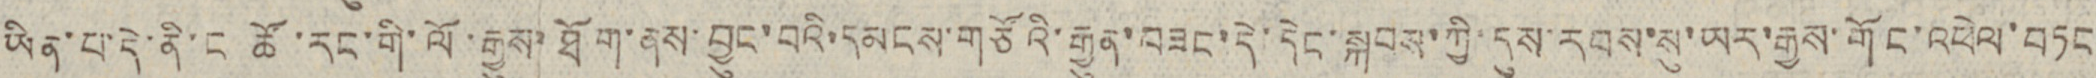ཡིན་པ་དེ་ནི་ང ཚོ་རང་གི་ལོ་རྒྱུས་ཐོག་ནས་བྱུང་བའི་དམངས་གཙོའི་རྒྱུན་བཟང་དེ་དེང་སྐབས་ཀྱི་དུས་རབས་སུ་ཡར་རྒྱས་གོང་འཕེལ་བཏང
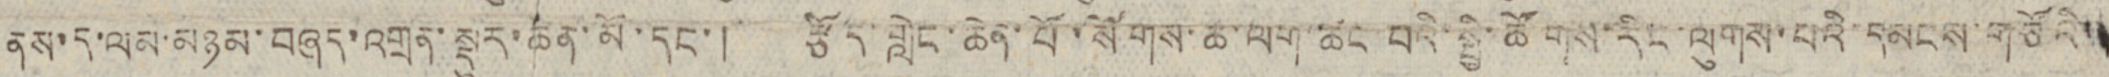ནས་ད་ལམ་མཉམ་བཞད་འགྲན་སྡུར་ཆེན་མོ་དང་། རྩོད་གླེང་ཆེན་པོ་སོགས་ཆ་ལག་ཚང་པའི་ཚོགས་རིང་ལུགས་པའི་དམངས་གཙོའི་་
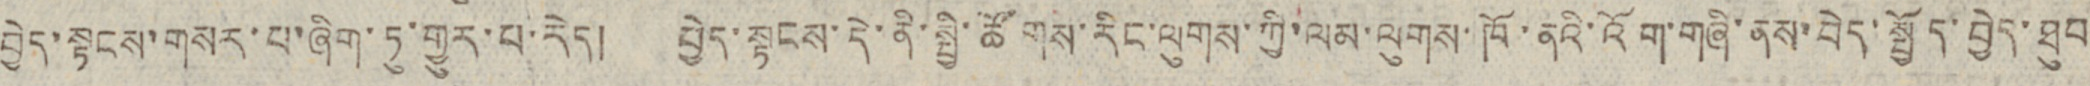བྱེད་སྟངས་གསར་པ་ཞིག་ཏུ་གྱུར་པ་རེད། བྱེད་སྟངས་དེ་ནི་སྤྱི་ཚོགས་རིང་ལུགས་ཀྱི་ལམ་ལུགས་ཁོ་ནའི་འོག་གཞི་ནས་བེད་སྤྱོད་བྱེད་ཐུབ
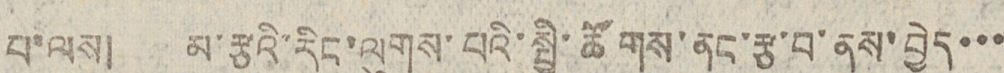པ་ལས། མ་རྩའི་རིང་ལུགས་པའི་སྤྱི་ཚོགས་ནང་རྩ་བ་ནས་བྱེད་་་
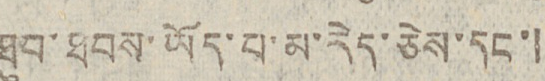ཐུབ་ཐབས་ཡོད་པ་མ་རེད་ཅེས་དང་།
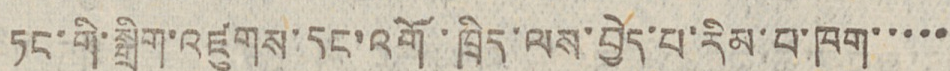ཏང་གི་སྒྲིག་འཛུགས་དང་འགོ་ཁྲིད་ལས་བྱེད་པ་རིམ་པ་ཁག་་་་་
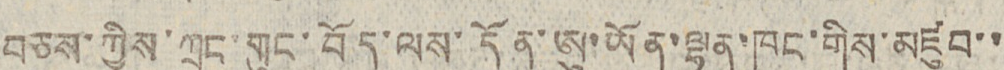བཅས་ཀྱིས་ཀྲུང་གུང་བོད་ལས་དོན་ཨུ་ཡོན་ལྷན་ཁང་གིས་མཛུབ་་
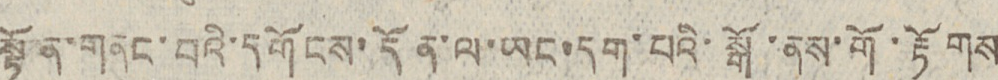སྟོན་གནང་བའི་དགོངས་དོན་ལ་ཡང་དག་པའི་སྒོ་ནས་གོ་རྟོགས
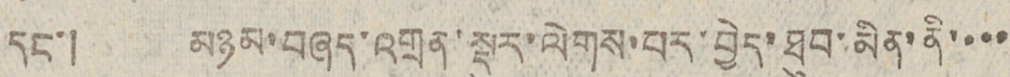དང་། མཉམ་བཞད་འགྲན་སྡུར་ལེགས་པར་བྱེད་ཐུབ་མིན་ནི་་་་
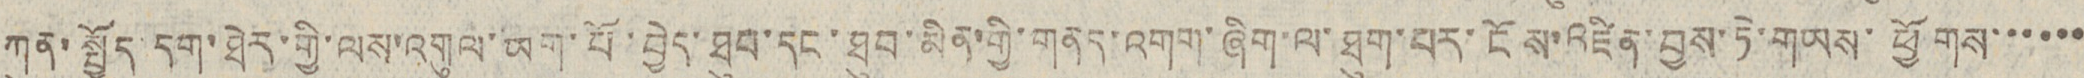ཀུན་སྤྱོད དག་ཐེར་གྱི་ལས་འགུལ་ཡག་པོ་བྱེད་ཐུབ་དང་ཐུབ་མིན་གྱི་གནད་འགག་ཞིག་ལ་ཐུག་པར་ངོས་འཛིན་བྱས་ཏེ་གཡས་ཕྱོགས་་་་་་
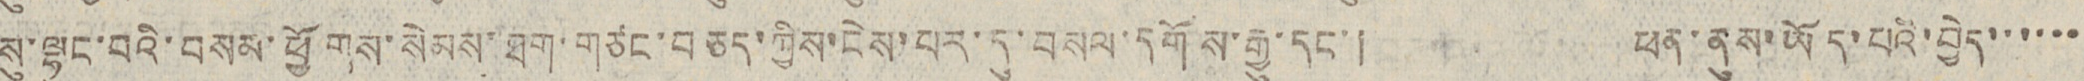སུ་ལྷུང་བའི་བསམ་ཕྱོགས་སེམས་ཐག་གཙང་བཅད་ཀྱིས་ངེས་པར་དུ་བསལ་དགོས་རྒྱུ་དང་། ཕན་ནུས་ཡོད་པའི་བྱེད་་་་་་
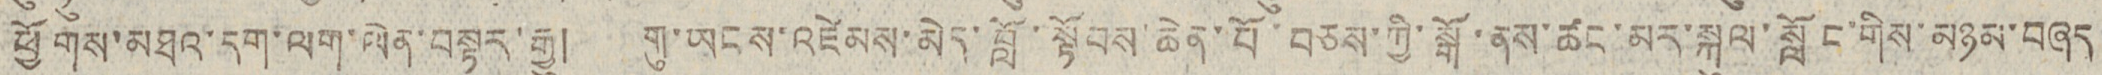ཕྱོགས་མཐའ་དག་ལག་ལེན་བསྟར་རྒྱུ། གུ་ཡངས་འཛེམས་མེད་བློ་སྟོབས་ཆེན་པོ་བཅས་ཀྱི་སྒོ་ནས་ཚང་མར་སྐུལ་སློང་གིས་མཉམ་བཞད
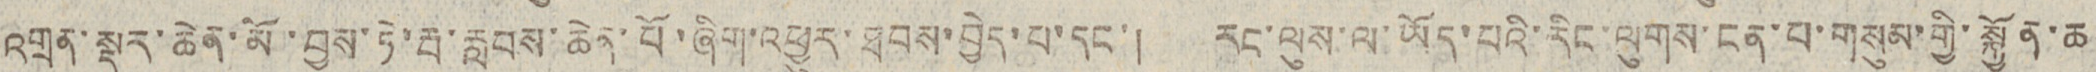འགྲན་སྡུར་ཆེན་མོ་བྱས་ཏེ་རྦ་རླབས་ཆེན་པོ་ཞིག་འཕྱུར་ཐབས་བྱེད་པ་དང་། རང་ལུས་ལ་ཡོད་པའི་རིང་ལུགས་ངན་པ་གསུམ་གྱི་སྐྱོན་ཆ
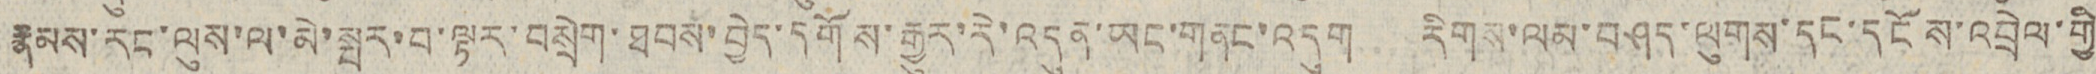རྣམས་རང་ལུས་ལ་མེ་སྤར་བ་ལྟར་བསྲེག་ཐབས་བྱེད་དགོས་རྒྱུར་རེ་འདུན་ཡང་གནང་འདུག རིགས་ལམ་བཤད་ལུགས་དང་དངོས་འབྲེལ་གྱི
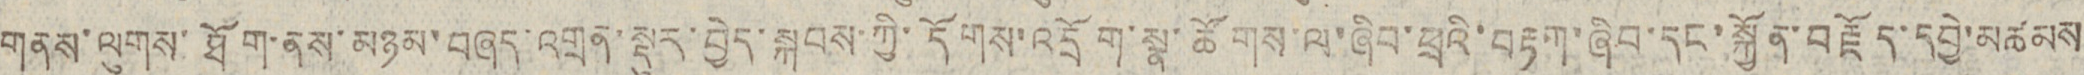གནས་ལུགས་ཐོག་ནས་མཉམ་བཞད་འགྲན་སྡུར་བྱེད་སྐབས་ཀྱི་དོགས་འདྲོག་སྣ་ཚོགས་ལ་ཞིབ་ཕྲའི་བརྟག་ཞིབ་དང་སྐྱོན་བརྗོད་དབྱེ་མཚམས
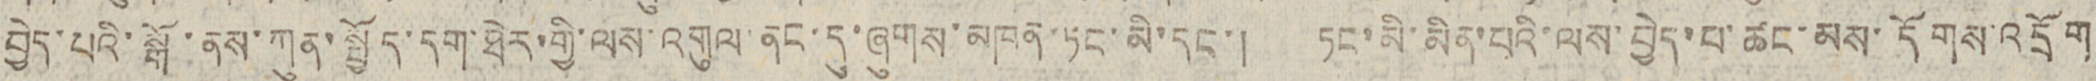བྱེད་པའི་སྒོ་ནས་ཀུན་སྤྱོད་དག་ཐེར་གྱི་ལས་འགུལ་ནང་དུ་ཞུགས་མཁན་ཏང་མི་དང་། ཏང་མི་མིན་པའི་ལས་བྱེད་པ་ཚང་མས་དོགས་འདྲོག
